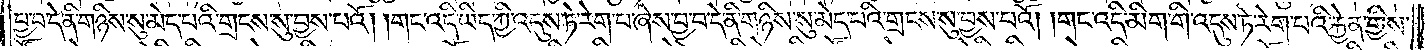བྱ་བ་དེ་ནི་གཉིས་སུ་མེད་པའི་གྲངས་སུ་བྱས་པའོ། །གང་འདི་ཡིད་ཀྱི་འདུས་ཏེ་རེག་པ་ཞེས་བྱ་བ་དེ་ནི་གཉིས་སུ་མེད་པའི་གྲངས་སུ་བྱས་པའོ། །གང་འདི་མིག་གི་འདུས་ཏེ་རེག་པའི་རྐྱེན་གྱིས་
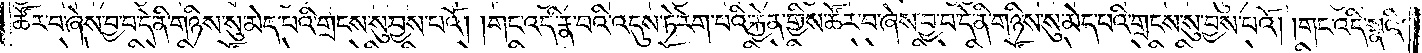ཚོར་བ་ཞེས་བྱ་བ་དེ་ནི་གཉིས་སུ་མེད་པའི་གྲངས་སུ་བྱས་པའོ། །གང་འདི་རྣ་བའི་འདུས་ཏེ་རེག་པའི་རྐྱེན་གྱིས་ཚོར་བ་ཞེས་བྱ་བ་དེ་ནི་གཉིས་སུ་མེད་པའི་གྲངས་སུ་བྱས་པའོ། །གང་འདི་སྣའི་
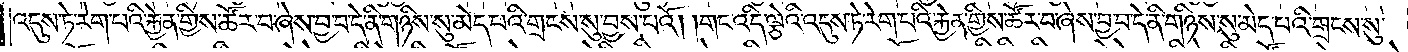འདུས་ཏེ་རེག་པའི་རྐྱེན་གྱིས་ཚོར་བ་ཞེས་བྱ་བ་དེ་ནི་གཉིས་སུ་མེད་པའི་གྲངས་སུ་བྱས་པའོ། །གང་འདི་ལྕེའི་འདུས་ཏེ་རེག་པའི་རྐྱེན་གྱིས་ཚོར་བ་ཞེས་བྱ་བ་དེ་ནི་གཉིས་སུ་མེད་པའི་གྲངས་སུ་
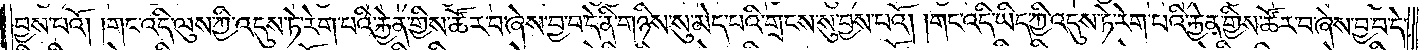བྱས་པའོ། །གང་འདི་ལུས་ཀྱི་འདུས་ཏེ་རེག་པའི་རྐྱེན་གྱིས་ཚོར་བ་ཞེས་བྱ་བ་དེ་ནི་གཉིས་སུ་མེད་པའི་གྲངས་སུ་བྱས་པའོ། །གང་འདི་ཡིད་ཀྱི་འདུས་ཏེ་རེག་པའི་རྐྱེན་གྱིས་ཚོར་བ་ཞེས་བྱ་བ་དེ་
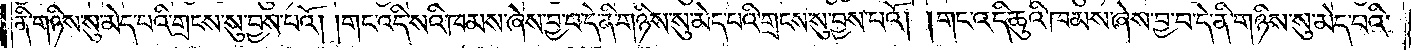ནི་གཉིས་སུ་མེད་པའི་གྲངས་སུ་བྱས་པའོ། །གང་འདི་སའི་ཁམས་ཞེས་བྱ་བ་དེ་ནི་གཉིས་སུ་མེད་པའི་གྲངས་སུ་བྱས་པའོ། །གང་འདི་ཆུའི་ཁམས་ཞེས་བྱ་བ་དེ་ནི་གཉིས་སུ་མེད་པའི་
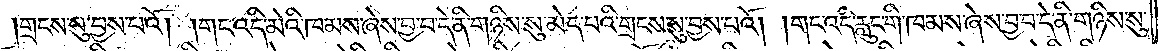གྲངས་སུ་བྱས་པའོ། །གང་འདི་མེའི་ཁམས་ཞེས་བྱ་བ་དེ་ནི་གཉིས་སུ་མེད་པའི་གྲངས་སུ་བྱས་པའོ། །གང་འདི་རླུང་གི་ཁམས་ཞེས་བྱ་བ་དེ་ནི་གཉིས་སུ་
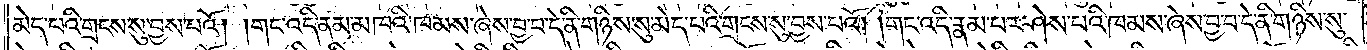མེད་པའི་གྲངས་སུ་བྱས་པའོ། །གང་འདི་ནམ་མཁའི་ཁམས་ཞེས་བྱ་བ་དེ་ནི་གཉིས་སུ་མེད་པའི་གྲངས་སུ་བྱས་པའོ། །གང་འདི་རྣམ་པར་ཤེས་པའི་ཁམས་ཞེས་བྱ་བ་དེ་ནི་གཉིས་སུ་
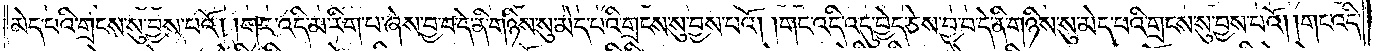མེད་པའི་གྲངས་སུ་བྱས་པའོ། །གང་འདི་མ་རིག་པ་ཞེས་བྱ་བ་དེ་ནི་གཉིས་སུ་མེད་པའི་གྲངས་སུ་བྱས་པའོ། །གང་འདི་འདུ་བྱེད་ཅེས་བྱ་བ་དེ་ནི་གཉིས་སུ་མེད་པའི་གྲངས་སུ་བྱས་པའོ། །གང་འདི་
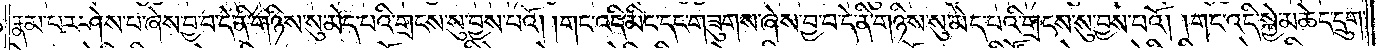རྣམ་པར་ཤེས་པ་ཞེས་བྱ་བ་དེ་ནི་གཉིས་སུ་མེད་པའི་གྲངས་སུ་བྱས་པའོ། །གང་འདི་མིང་དང་གཟུགས་ཞེས་བྱ་བ་དེ་ནི་གཉིས་སུ་མེད་པའི་གྲངས་སུ་བྱས་པའོ། གང་འདི་སྐྱེ་མཆེད་དྲུག་
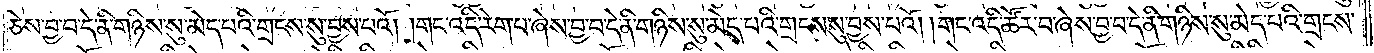ཅེས་བྱ་བ་དེ་ནི་གཉིས་སུ་མེད་པའི་གྲངས་སུ་བྱས་པའོ། །གང་འདི་རེག་པ་ཞེས་བྱ་བ་དེ་ནི་གཉིས་སུ་མེད་པའི་གྲངས་སུ་བྱས་པའོ། །གང་འདི་ཚོར་བ་ཞེས་བྱ་བ་དེ་ནི་གཉིས་སུ་མེད་པའི་གྲངས་
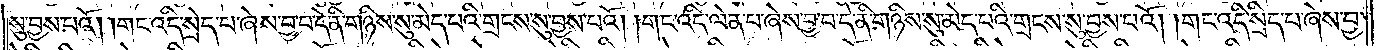སུ་བྱས་པའོ། །གང་འདི་སྲེད་པ་ཞེས་བྱ་བ་དེ་ནི་གཉིས་སུ་མེད་པའི་གྲངས་སུ་བྱས་པའོ། །གང་འདི་ལེན་པ་ཞེས་བྱ་བ་དེ་ནི་གཉིས་སུ་མེད་པའི་གྲངས་སུ་བྱས་པའོ། །གང་འདི་སྲིད་པ་ཞེས་བྱ་
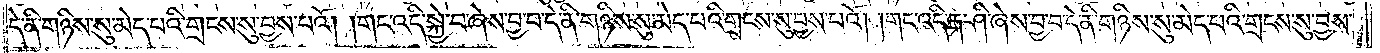བ་དེ་ནི་གཉིས་སུ་མེད་པའི་གྲངས་སུ་བྱས་པའོ། །གང་འདི་སྐྱེ་བ་ཞེས་བྱ་བ་དེ་ནི་གཉིས་སུ་མེད་པའི་གྲངས་སུ་བྱས་པའོ། །གང་འདི་རྒ་ཤི་ཞེས་བྱ་བ་དེ་ནི་གཉིས་སུ་མེད་པའི་གྲངས་སུ་བྱས་
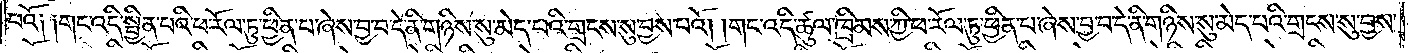པའོ༏ ༏གང་འདི་སྦྱིན་པའི་ཕ་རོལ་ཏུ་ཕྱིན་པ་ཞེས་བྱ་བ་དེ་ནི་གཉིས་སུ་མེད་པའི་གྲངས་སུ་བྱས་པའོ། །གང་འདི་ཚུལ་ཁྲིམས་ཀྱི་ཕ་རོལ་ཏུ་ཕྱིན་པ་ཞེས་བྱ་བ་དེ་ནི་གཉིས་སུ་མེད་པའི་གྲངས་སུ་བྱས་
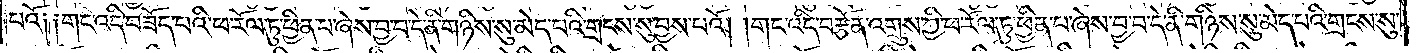པའོ༏ ༏གང་འདི་བཟོད་པའི་ཕ་རོལ་ཏུ་ཕྱིན་པ་ཞེས་བྱ་བ་དེ་ནི་གཉིས་སུ་མེད་པའི་གྲངས་སུ་བྱས་པའོ། །གང་འདི་བརྩོན་འགྲུས་ཀྱི་ཕ་རོལ་ཏུ་ཕྱིན་པ་ཞེས་བྱ་བ་དེ་ནི་གཉིས་སུ་མེད་པའི་གྲངས་སུ་
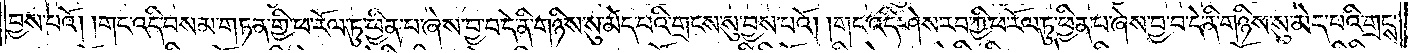བྱས་པའོ། །གང་འདི་བསམ་གཏན་གྱི་ཕ་རོལ་ཏུ་ཕྱིན་པ་ཞེས་བྱ་བ་དེ་ནི་གཉིས་སུ་མེད་པའི་གྲངས་སུ་བྱས་པའོ། །གང་འདི་ཤེས་རབ་ཀྱི་ཕ་རོལ་ཏུ་ཕྱིན་པ་ཞེས་བྱ་བ་དེ་ནི་གཉིས་སུ་མེད་པའི་གྲངས་
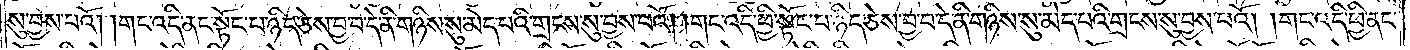སུ་བྱས་པའོ། །གང་འདི་ནང་སྟོང་པ་ཉིད་ཅེས་བྱ་བ་དེ་ནི་གཉིས་སུ་མེད་པའི་གྲངས་སུ་བྱས་པའོ། །གང་འདི་ཕྱི་སྟོང་པ་ཉིད་ཅེས་བྱ་བ་དེ་ནི་གཉིས་སུ་མེད་པའི་གྲངས་སུ་བྱས་པའོ། །གང་འདི་ཕྱི་ནང་
